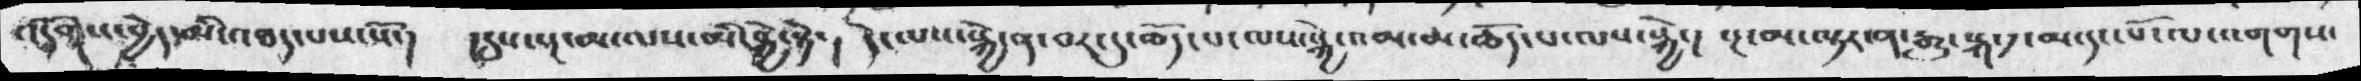འདོགས་བྱེད་མི་འཐད་པས་སོ་།   ། དུས་སྔ་མ་ལས་མི་སྐྱེ་སྟེ་།  དེ་ལས་སྐྱེ་ན་བར་དུ་ཆོད་པ་ལས་སྐྱེ་འམ་མ་ཆོད་པ་ལས་སྐྱེ་། སྔ་མ་ལྟར་ན་རྒྱུ་སྐ་༡་མ་དང་པོ་ལ་འགགས་
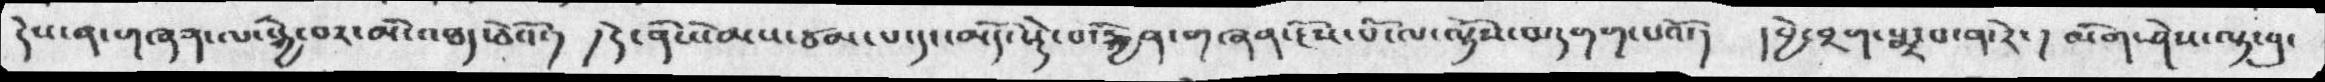དེས་ན་གཞན་ལ་སྐྱེ་བར་མི་འཐད་ཅེའོ་། །དེ་ནི་སེམས་ཙམ་པ་དང་མདོ་སྡེ་པ་རྐྱེན་གཞན་ངོས་པོ་ལ་ལྟོས་བ་དགག་པོ་།  །བྱེ་བྲག་སྨྲ་པ་ན་རེ་ ། མིག་ཤེས་ལྟ་བུ་
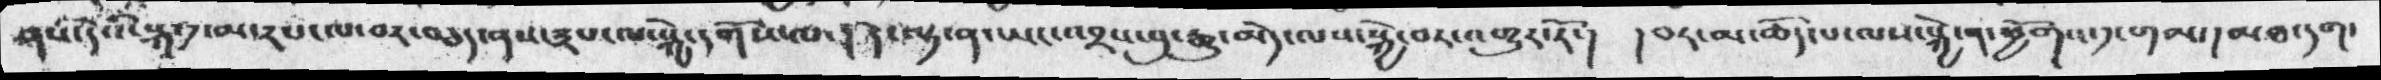ནས་དེའི་སྐ་༡་མ་༢པ་ལ་བར་བཅད་ནས་༣པ་ལ་སྐྱེ་དགོས་ལ་།  དེ་ལྟ་ན་ཡང་འབྲས་བུ་རྒྱུ་མེད་ལས་སྐྱེ་བར་འགྱུར་རོ་། ། བར་མ་ཆོད་པ་ལས་སྐྱེ་ན་ཕྱོགས་༡་གམ་། མཐ་དག་
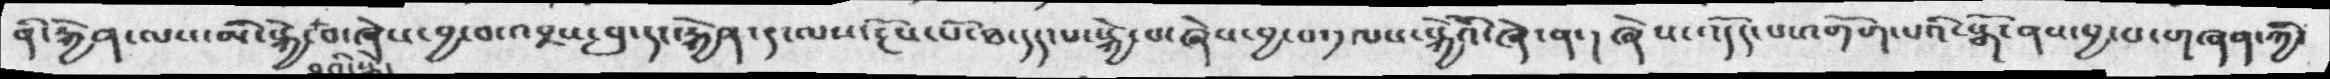ནི་རྐྱེན་ལས་མི་སྐྱེ་བའི་སྐྱེ་བ་ཞེས་བྱ་བ་འབྲས་བུ་དང་རྐྱེན་༡་ལས་རྔོས་པོ་ཐ་དད་པ་སྐྱེ་བ་ཞེས་བྱ་བ་༡ལས་སྐྱེའོ་ཞེ་ན་།  ཞེས་འདོད་པ་འགོག་པའི་སྒོ་ནས་བྱ་བ་གཞན་ཀྱི་
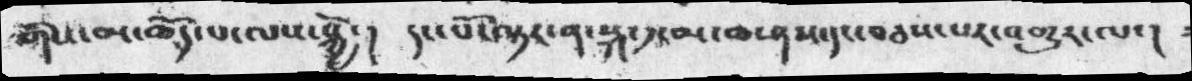གིས་མ་ཆོད་པ་ལས་སྐྱེ་།  དང་པོ་ལྟར་ན་སྐ་༡་མ་ཁ་ཤས་དང་བཅས་པར་འགྱུར་ལ་།
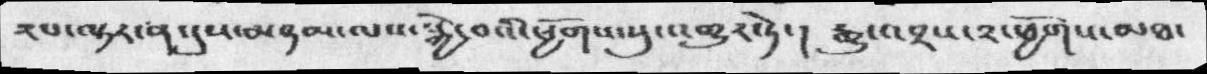༢པ་ལྟར་ན་དུས་མཉམ་ལས་སྐྱེ་བའི་ཕྱོགས་སུ་འགྱུར་ཏེ་།  རྒྱུ་འབྲས་༢་ཕྱོགས་མཐ་
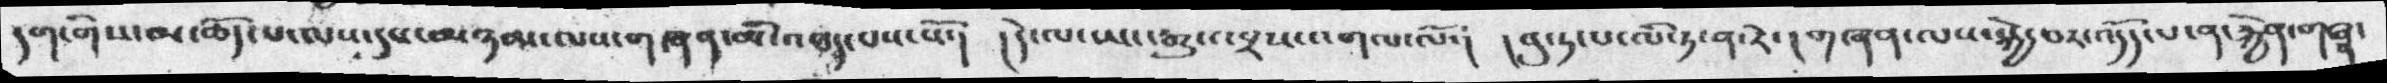དག་གིས་མ་ཆོད་པའ་ལས་དུས་མཉམ་ལས་གཞན་མི་འཐད་པས་སོ་།   །དེ་ལ་ཡང་རྒྱུ་འབྲས་འགལ་ལོ་།   །བུ་ཏ་པ་ལི་ཏ་ན་རེ་།  གཞན་ལས་སྐྱེ་བར་འདོད་པ་ན་རྐྱེན་གཞན་
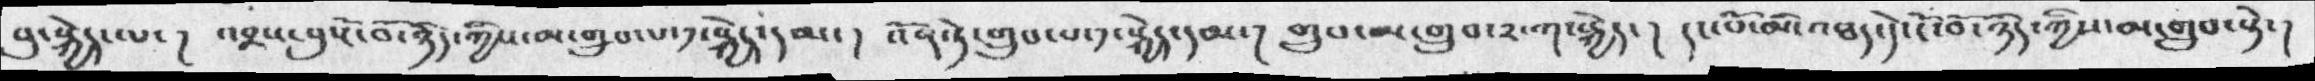བུ་སྐྱེད་ལ་ ། འབྲས་བུ་ངོ་བོ་ཉིད་ཀྱིས་མ་གྲུབ་པ་༡་སྐྱེད་དམ་ ། འོན་དེ་གྲུབ་པ་༡་སྐྱེད་དམ་། གྲུབ་མ་གྲུབ་༢་ག་སྐྱེད་ ། དང་པོ་མི་འཐད་དེ་ངོ་བོ་ཉིད་ཀྱིས་མ་གྲུམ་སྟེ་།
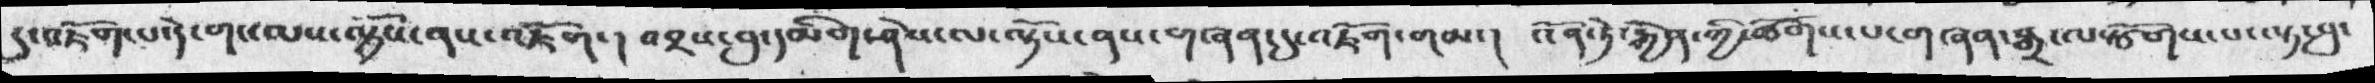དུ་འཇོག་པ་དེ་གང་ལས་ལྟོས་ནས་འཇོག་།  འབྲས་བུ་དམིག་ཤེས་ལ་ལྟོས་ནས་གཞན་དུ་འཇོག་གམ་། འོན་ཏེ་རྐྱེན་ཀྱི་ཚོགས་པ་གཞན་སྒྲ་ལ་སྩོགས་པ་ལྟ་བུ་
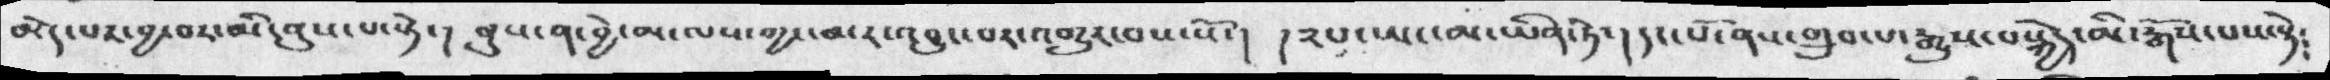མེད་པར་བྱ་བར་མི་ནུས་པ་སྟེ་། ནུས་ན་བྱེ་མ་ལས་ཀྱང་མར་འབྱུང་བར་འགྱུར་བས་སོ་། །༢པ་ཡང་མ་ཡིན་ཏེ་། དང་པོ་ནས་གྲུབ་པ་རྒྱུས་བསྐྱེད་མི་རྒོས་པས་སྟེ༴
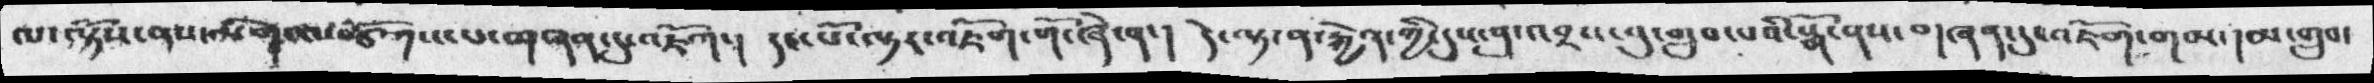ལ་ལྟོས་ནས་ལེགས་ཚོགས་ལ་གཞན་དུ་འཇོག་། དང་པོ་ལྟར་འཇོག་གོ་ཞེ་ན་། དེ་ལྟ་ན་རྐྱེན་ཀྱི་དུས་བུ་འབྲས་བུ་གྲུབ་པའི་སྒོ་ནས་གཞན་དུ་འཇོག་གམ་།མ་གྲུབ་
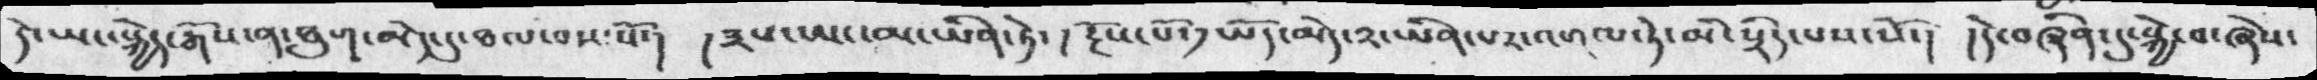དེ་ཡང་སྐྱེད་རྒོས་ན་ཐུག་མེད་དུ་ཐལ་བས་སོ་། །༣པ་ཡང་མ་ཡིན་ཏེ་། རྔོས་པོ་༡ཡོད་མེད་༢་ཡིན་པར་འགལ་ཏེ་མི་སྲིད་པས་སོ་། །དེ་བཞིན་དུ་སྐྱེ་བ་ཞེས་
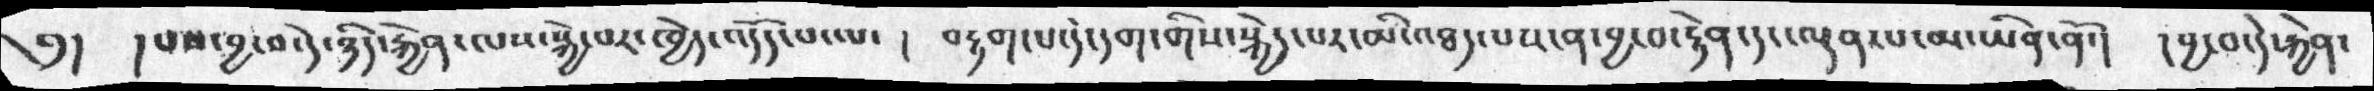༅། །པས་བྱ་བ་དེ་ཉིད་རྐྱེན་ལས་སྐྱེ་བར་ཁྱེད་འདོད་པ་ལ་ ། བརྟག་པ་དེ་དག་གིས་སྐྱེད་པར་མི་འཐད་པས་ན་བྱ་བ་རྟེན་དང་ལྡན་པ་མ་ཡིན་ནོ་། །བྱ་བ་དེ་རྐྱེན་
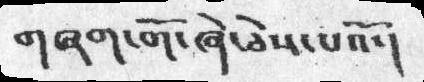གཞག་གོ་ཞེ་ཅེས་པའོ་།
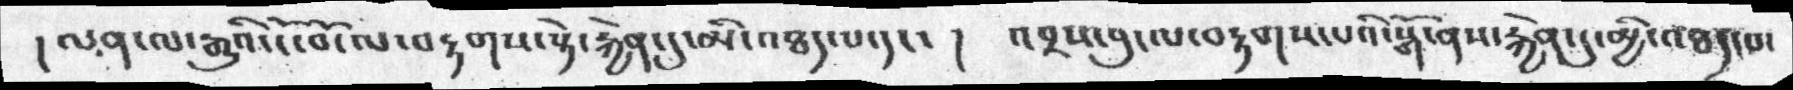།ལན་ལ་རྒྱུའི་ངོ་བོ་ལ་བརྟགས་སྟེ་རྐྱེན་དུ་མི་འཐད་པ་དང་ །  འབྲས་བུ་ལ་བརྟགས་པའི་སྒོ་ནས་རྐྱེན་དུ་མྱི་འཐད་པ་
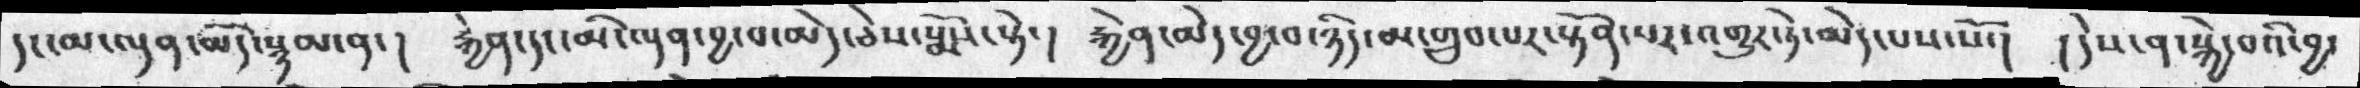དང་མ་ལྡན་མོད་སྙམ་ན་།  རྐྱེན་དང་མི་ལྡན་བྱ་བ་མེད་ཅེས་སྨོས་སྟེ་།  རྐྱེན་མེད་བྱ་བ་ཉིད་མ་གྲུབ་པར་སྟོན་པར་འགྱུར་ཏེ་མེད་པས་སོ་།  །དེས་ན་སྐྱེ་བའི་བྱ་
